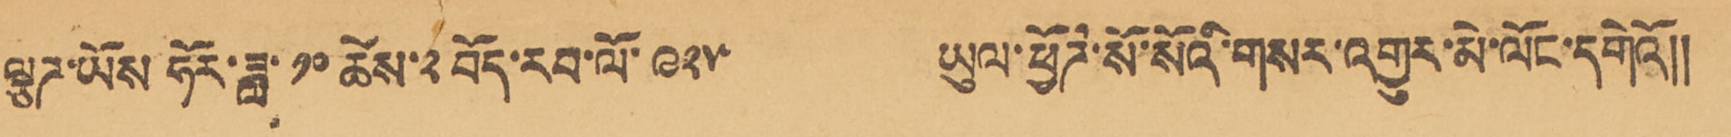ལྕཌ་ཡོས ཧོར་ཟླ་ ༡༠ ཚེས་༢བོད་རབ་ལོ་ ༩༢༥ ཡུལ་ཕྱོཌ་སོ་སོའི་གསར་འགྱུར་མེ་ལོང་དགེའོ།།
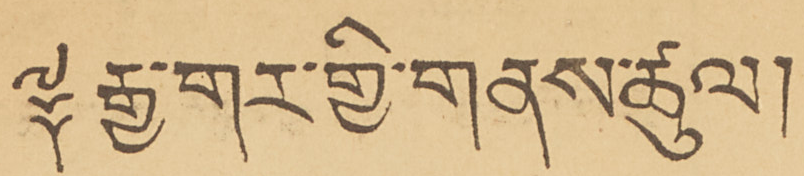༈ རྒྱ་གར་གྱི་གནས་ཚུལ།
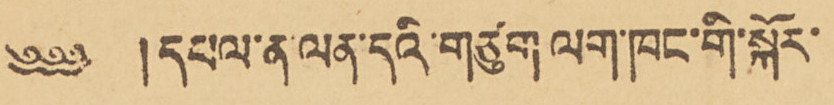༄༅༅ །དཔལ་ན་ལན་དའི་གཙུག ལག་ཁང་གི་སྐོར་
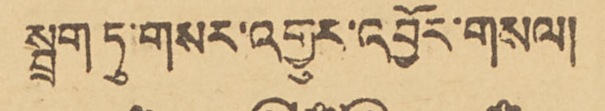སྦྲག ཏུ་གསར་འགྱུར་འབྱོར་གསལ།
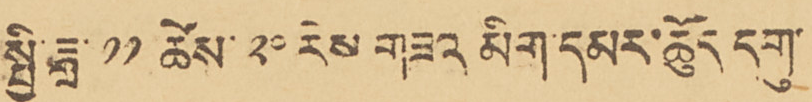སྤྱི་ཟླ་ ༡༡ ཚེས་ ༢༠ རེས་གཟའ མིག་དམར་ཚོུད དགུ་
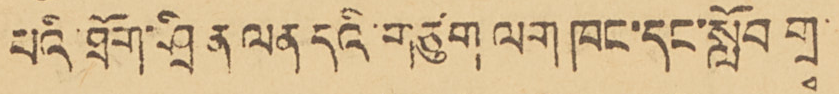པའི་ཐོག་ཤྲིན ལན དུའི་གཙུག ལག ཁང་དང་སློབ་གྲྭ་
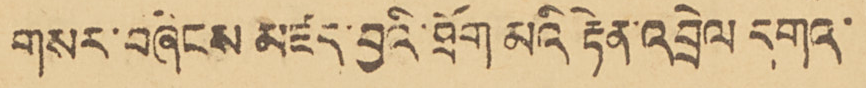གསར་བཞིངས མཛད་བྱའི་ཐོག མའི རྟེན་འབྲེལ དགའ་
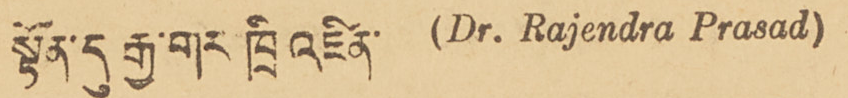སྟོན་དུ རྒྱ་གར་ཁྲི འཛིན་ (Dr. Rajendra Prasad)
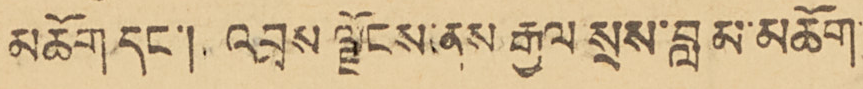མཆོག དང་། འབྲས ལྗོངས་ནས རྒྱལ སྲས་བླ མ་མཆོག
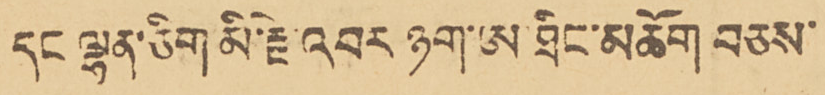དང ལྷན་ཅིག མི་རྗེ་འབར ཉག་ཨ་ཐིང་མཆོག བཅས་
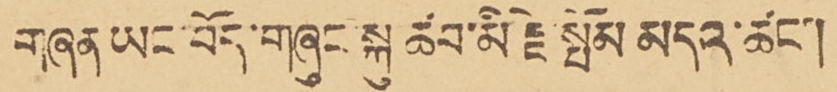གཞན ཡང་བོད་གཞུང་སྐུ ཚབ་མི རྗེ་སྤོམ མདའ་ཚང་།
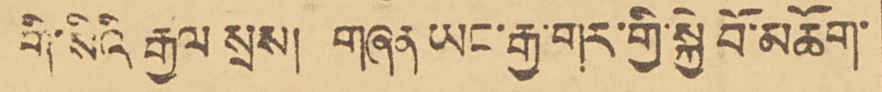གི་སིའི རྒྱལ སྲས། གཞན ཡང་རྒྱ་གར་གྱི་སྐྱེ བོ་མཆོག་
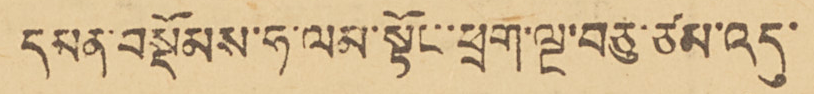དམན་བསྡོམས་ཧ་ལམ་སྟོང་་ཕྲག་ལྔ་བཅུ་ཙམ་འདུ་
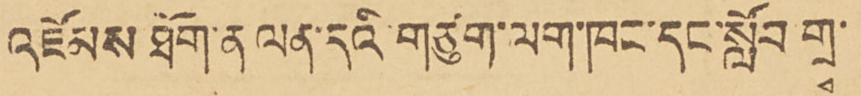འཛོམས ཐོག་ན ལན་དའི་གཙུག་ལག་ཁང་དང་སློབ་གྲྭ་
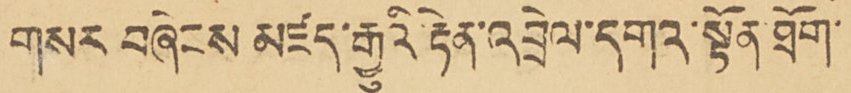གསར བཞེངས མཛད་རྒྱུའི་རྟེན་འབྲེལ་དགའ་སྟོན་ཐོག་
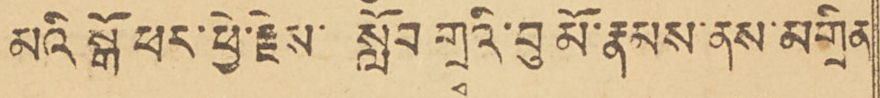མའི སྒོ ཕར་ཕྱེ་རྗེས་ སློབ གྲྭའི་བུ མོ་རྣམས་ནས་མགྲིན
